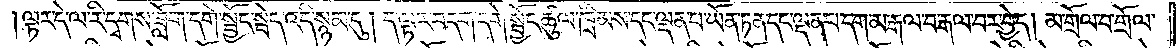ལྟར་དེ་ལ་རི་དྭགས་ཟློག་དགེ་སྦྱོང་སྦེད་འདི་སྙམ་དུ། ད་ལྟར་བདག་དགེ་སྦྱོང་ཚུལ་ཁྲིམས་དང་ལྡན་པ་ཡོན་ཏན་དང་ལྡན་པ་དག་མ་རྒལ་བ་རྒལ་བར་བྱེད། མ་གྲོལ་བ་གྲོལ་
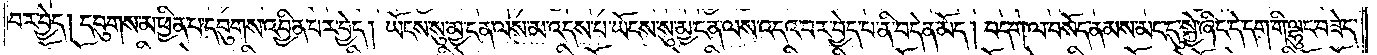བར་བྱེད། དབུགས་མ་ཕྱིན་པ་དབུགས་འབྱིན་པར་བྱེད། ཡོངས་སུ་མྱ་ངན་ལས་མ་འདས་པ་ཡོངས་སུ་མྱ་ངན་ལས་འདའ་བར་བྱེད་པ་ནི་བདེན་མོད། བདག་ལ་བསོད་ནམས་མང་དུ་སྐྱེ་ཞིང་དེ་དག་གི་ལྷུང་བཟེད་
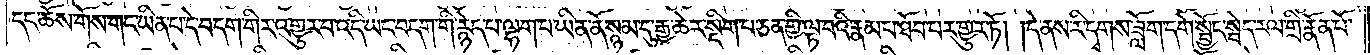དང་ཆོས་གོས་གང་ཡིན་པ་དེ་བདག་གིར་འགྱུར་བ་འདི་ཡང་བདག་གི་རྙེད་པ་ལྷག་པ་ཡིན་ནོ་སྙམ་དུ་རྒྱ་ཆེར་སྡིག་པ་ཅན་གྱི་ལྟ་བའི་རྣམ་པ་ཐོབ་པར་གྱུར་ཏོ། །དེ་ནས་རི་དྭགས་ཟློག་དགེ་སྦྱོང་སྦེད་རལ་གྲི་རྣོན་པོ་
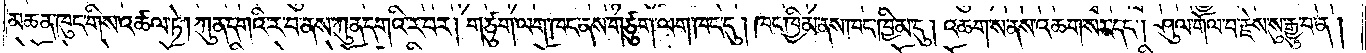མཆན་ཁུང་གིས་འཚལ་ཏེ། ཀུན་དགའི་ར་བ་ནས་ཀུན་དགའི་ར་བར། གཙུག་ལག་ཁང་ནས་གཙུག་ལག་ཁང་དུ། ཁང་ཁྱིམ་ནས་ཁང་ཁྱིམ་དུ། འཆག་ས་ནས་འཆག་སར་དང༌། ཤུལ་གོལ་བ་རྗེས་སུ་རྒྱུ་བ་ན།
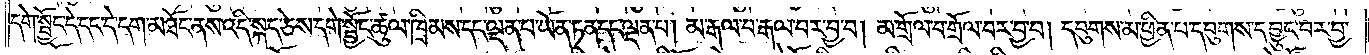དགེ་སྦྱོང་དེ་དང་དེ་དག་མཐོང་ནས་འདི་སྐད་ཅེས་དགེ་སྦྱོང་ཚུལ་ཁྲིམས་དང་ལྡན་པ་ཡོན་ཏན་དང་ལྡན་པ། མ་རྒལ་བ་རྒལ་བར་བྱ་བ། མ་གྲོལ་བ་གྲོལ་བར་བྱ་བ། དབུགས་མ་ཕྱིན་པ་དབུགས་དབྱུང་བར་བྱ་
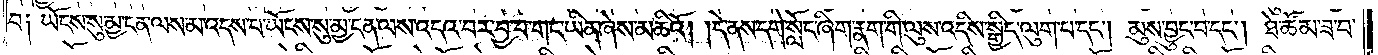བ༑ ཡོངས་སུ་མྱ་ངན་ལས་མ་འདས་པ་ཡོངས་སུ་མྱ་ངན་ལས་འདའ་བར་བྱ་བ་གང་ཡིན་ཞེས་མཆིའོ། །དེ་ནས་དགེ་སློང་ཞིག་རྣག་གི་ལུས་འདིས་སྒྱིད་ལུག་པ་དང༌། མུས་བྱུང་བ་དང༌། ཐེ་ཚོམ་ཟ་བ་
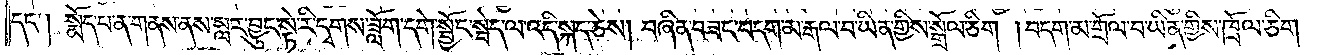དང༌། སྨོད་པ་ན་གནས་ནས་སླར་བྱུང་སྟེ་རི་དྭགས་ཟློག་དགེ་སྦྱོང་སྦེད་ལ་འདི་སྐད་ཅེས། བཞིན་བཟང་བདག་མ་རྒལ་བ་ཡིན་གྱིས་སྒྲོལ་ཅིག །བདག་མ་གྲོལ་བ་ཡིན་གྱིས་ཁྲོལ་ཅིག
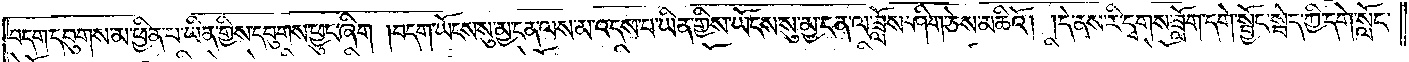བདག་དབུགས་མ་ཕྱིན་པ་ཡིན་གྱིས་དབུགས་ཕྱུང་ཞིག །བདག་ཡོངས་སུ་མྱ་ངན་ལས་མ་འདས་པ་ཡིན་གྱིས་ཡོངས་སུ་མྱ་ངན་ལ་ཟློས་ཤིག་ཅེས་མཆིའོ། །དེ་ནས་རི་དྭགས་ཟློག་དགེ་སྦྱོང་སྦེད་ཀྱི་དགེ་སློང་
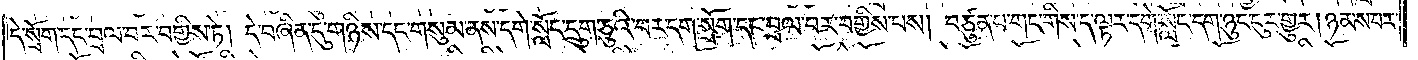དེ་སྲོག་དང་བྲལ་བར་བགྱིས་ཏེ། དེ་བཞིན་དུ་གཉིས་དང་གསུམ་ནས་དགེ་སློང་དྲུག་ཅུའི་བར་དག་སྲོག་དང་བྲལ་བར་བགྱིས་པས། བཙུན་པ་གང་གིས་ད་ལྟར་དགེ་སློང་དག་ཉུང་ངུར་གྱུར། ཉམས་པར་
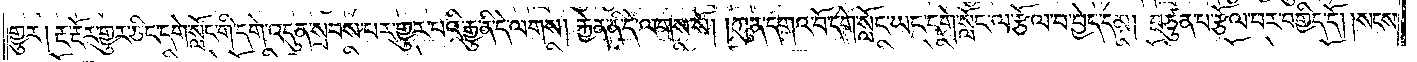གྱུར། རྔ་རྡོར་གྱུར་ཅིང་དགེ་སློང་གི་དགེ་འདུན་སྲབས་པར་གྱུར་པའི་རྒྱུ་ནི་དེ་ལགས། རྐྱེན་ནི་དེ་ལགས་སོ། །ཀུན་དགའ་བོ་དགེ་སློང་ཡང་དགེ་སློང་ལ་རྩོལ་བ་བྱེད་དམ། བཙུན་པ་རྩོལ་བར་བགྱིད་དོ། །སངས་
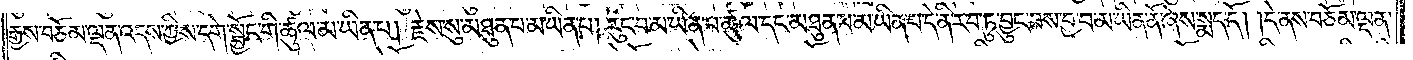རྒྱས་བཅོམ་ལྡན་འདས་ཀྱིས་དགེ་སྦྱོང་གི་ཚུལ་མ་ཡིན་པ། རྗེས་སུ་མཐུན་པ་མ་ཡིན་པ། རུང་བ་མ་ཡིན་པ་ཚུལ་དང་མཐུན་པ་མ་ཡིན་པ་དེ་ནི་རབ་ཏུ་བྱུང་བས་བྱ་བ་མ་ཡིན་ནོ་ཞེས་སྨད་དོ། །དེ་ནས་བཅོམ་ལྡན་
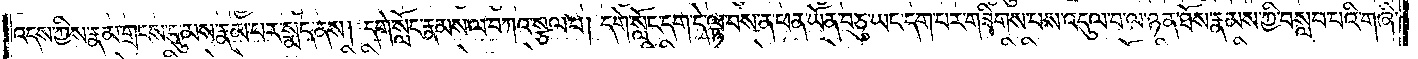འདས་ཀྱིས་རྣམ་གྲངས་དུ་མས་རྣམ་པར་སྨད་ནས། དགེ་སློང་རྣམས་ལ་བཀའ་སྩལ་པ། དགེ་སློང་དག་དེ་ལྟ་བས་ན་ཕན་ཡོན་བཅུ་ཡང་དག་པར་གཟིགས་པས་འདུལ་བ་ལ་ཉན་ཐོས་རྣམས་ཀྱི་བསླབ་པའི་གཞི་
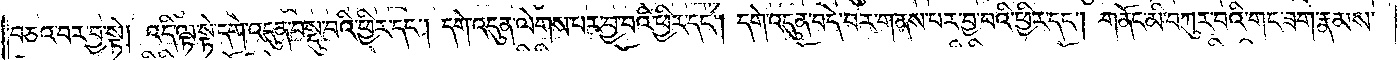བཅའ་བར་བྱ་སྟེ། འདི་ལྟ་སྟེ་དགེ་འདུན་བསྡུ་བའི་ཕྱིར་དང༌། དགེ་འདུན་ལེགས་པར་བྱ་བའི་ཕྱིར་དང༌། དགེ་འདུན་བདེ་བར་གནས་པར་བྱ་བའི་ཕྱིར་དང༌། གནོང་མི་བཀུར་བའི་གང་ཟག་རྣམས་
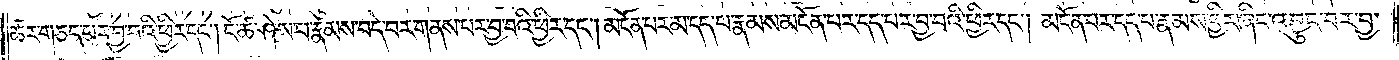ཚར་གཅད་པར་བྱ་བའི་ཕྱིར་དང༌། ངོ་ཚ་ཤེས་པ་རྣམས་བདེ་བར་གནས་པར་བྱ་བའི་ཕྱིར་དང༌། མངོན་པར་མ་དད་པ་རྣམས་མངོན་པར་དད་པར་བྱ་བའི་ཕྱིར་དང༌། མངོན་པར་དད་པ་རྣམས་ཕྱིར་ཞིང་འབྱུང་བར་བྱ་
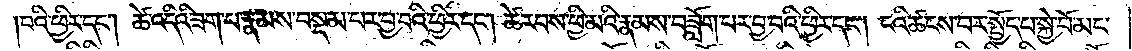བའི་ཕྱིར་དང༌། ཚེ་འདིའི་ཟག་པ་རྣམས་བསྡམ་པར་བྱ་བའི་ཕྱིར་དང༌། ཚེ་རབས་ཕྱི་མའི་རྣམས་བཟློག་པར་བྱ་བའི་ཕྱིར་དང༌། ངའི་ཚངས་པར་སྤྱོད་པ་སྐྱེ་བོ་མང་
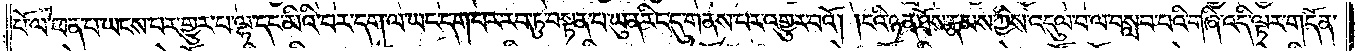པོ་ལ་ཕན་པ་ཡངས་པར་གྱུར་པ་ལྷ་དང་མིའི་བར་དག་ལ་ཡང་དག་པར་རབ་ཏུ་བསྟན་པ་ཡུན་རིང་དུ་གནས་པར་འགྱུར་བའོ། །ངའི་ཉན་ཐོས་རྣམས་ཀྱིས་འདུལ་བ་ལ་བསླབ་པའི་གཞི་འདི་ལྟར་གདོན་
